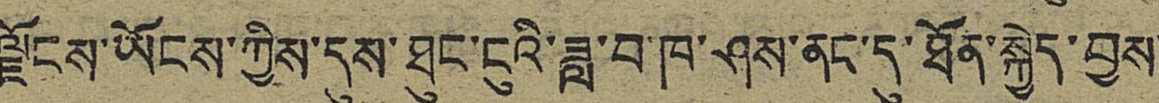ལྗོངས་ཡོངས་ཀྱིས་དུས་ཐུང་ངུའི་ཟླ་བ་ཁ་ཤས་ནང་དུ་ཐོན་སྐྱེད་བྱས་
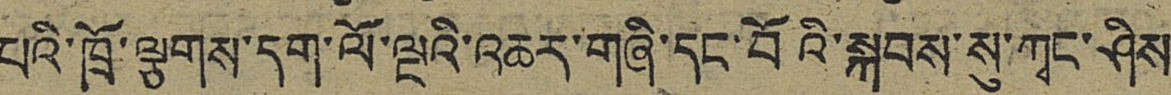པའི་ཁྲོ་ལྕགས་དག་ལོ་ལྔའི་འཆར་གཞི་དང་བོའི་སྐབས་སུ་ཀྭང་ཤིས
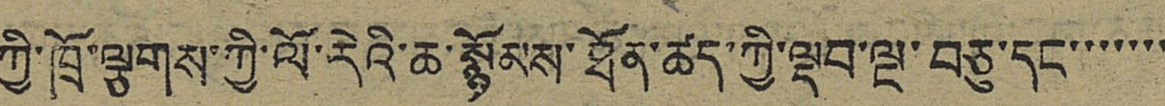ཀྱི་ཁྲོ་ལྕགས་ཀྱི་ལོ་རེའི་ཆ་སྙོམས་ཐོན་ཚད་ཀྱི་ལྡབ་ལྔ་བཅུ་དང་་་་་་་
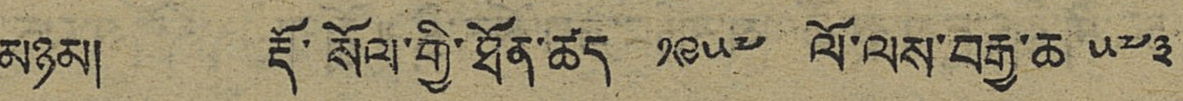མཉམ། རྡོ་སོལ་གྱི་ཐོན་ཚད ༡༩༥༧ ལོ་ལས་བརྒྱ་ཆ ༥༧༣
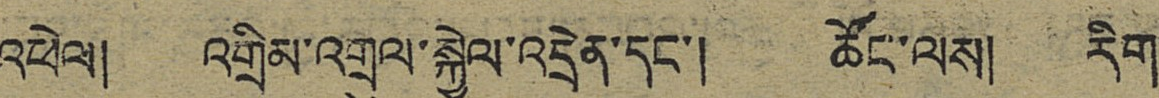འཕེལ། འགྲིམ་འགྲུལ་སྐྱེལ་འདྲེན་དང་། ཚོང་ལས། རིག་
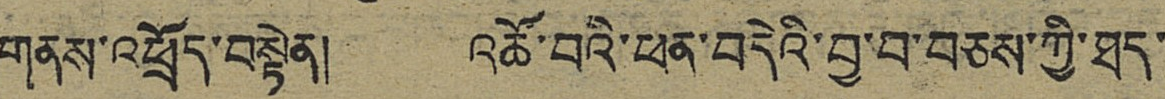གནས་འཕྲོད་བསྟེན། འཚོ་བའི་ཕན་བདེའི་བྱ་བ་བཅས་ཀྱི་ཐད་
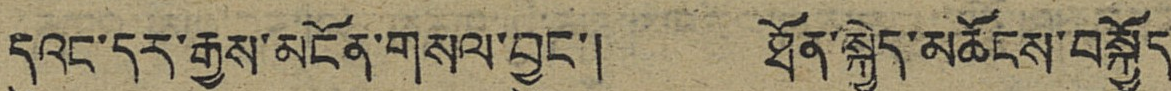དུའང་དར་རྒྱས་མངོན་གསལ་བྱུང་། ཐོན་སྐྱེད་མཆོངས་བསྐྱོད་
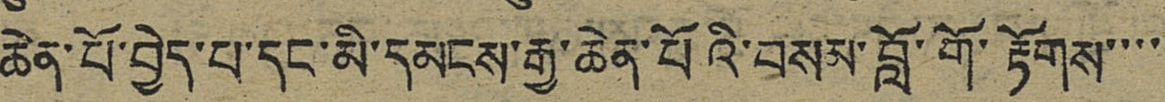ཆེན་པོ་བྱེད་པ་དང་མི་དམངས་རྒྱ་ཆེན་པོའི་བསམ་བློ་གོ་རྟོགས་་་་་
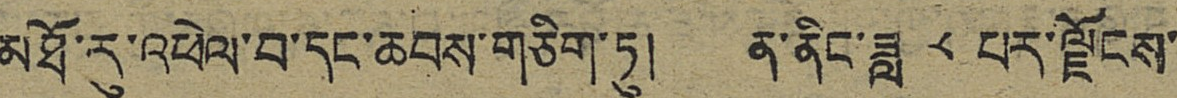མཐོ་རུ་འཕེལ་བ་དང་ཆབས་གཅིག་ཏུ། ན་ནིང་ཟླ ༨ པར་ལྗོངས་
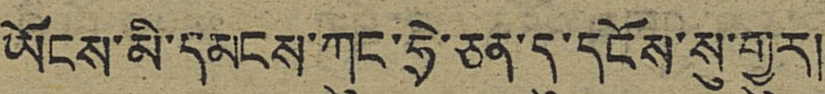ཡོངས་མི་དམངས་ཀུང་ཧྲེ་ཅན་དུ་དངོས་སུ་གྱུར།
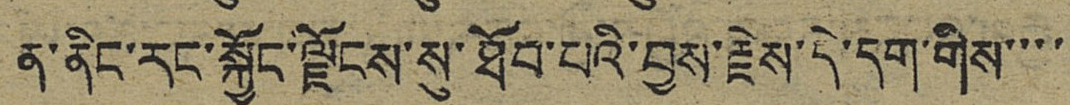ན་ནིང་རང་སྐྱོང་ལྗོངས་སུ་ཐོབ་པའི་བྱས་རྗེས་དེ་དག་གིས་་་་
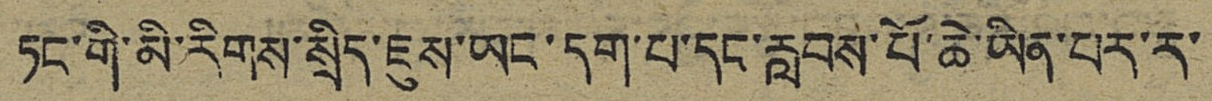ཏང་གི་མི་རིགས་སྲིད་ཇུས་ཡང་དག་པ་དང་རླབས་པོ་ཆེ་ཡིན་པར་ར་
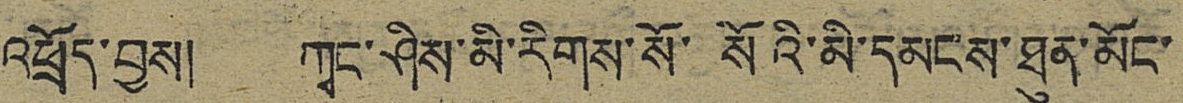འཕྲོད་བྱས། ཀྭང་ཤིས་མི་རིགས་སོ་སོའི་མི་དམངས་ཐུན་མོང་
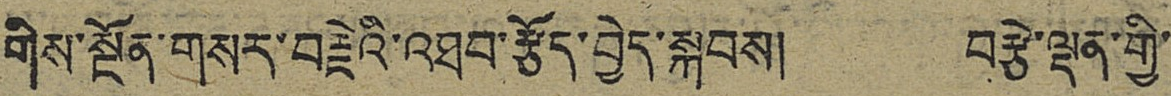གིས་སྔོན་གསར་བརྗེའི་འཐབ་རྩོད་བྱེད་སྐབས། བརྩེ་ལྡན་གྱི་
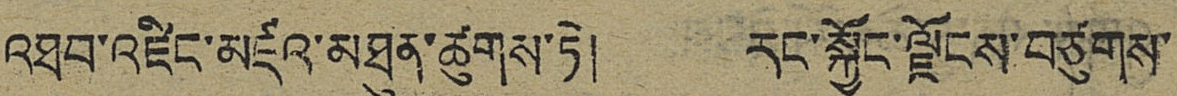འཐབ་འཛིང་མཛའ་མཐུན་ཚུགས་ཏེ། རང་སྐྱོང་ལྗོངས་བཙུགས་
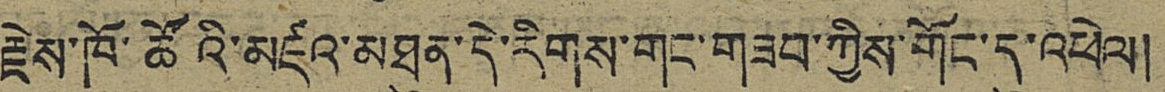རྗེས་ཁོ་ཚོའི་མཛའ་མཐུན་དེ་རིགས་གང་གཟབ་ཀྱིས་གོང་དུ་འཕེལ།
